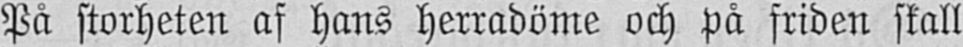På storheten af hans herradöme och på friden skall
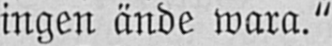ingen ände wara."
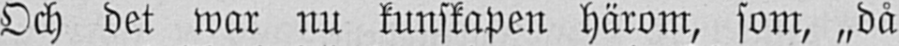Och det war nu kunskapen härom, som, „då
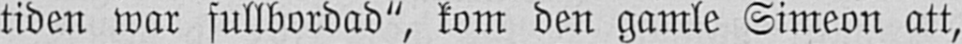tiden war fullbordad", kom den gamle Simeon att,
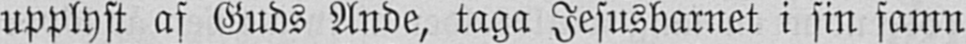upplyst af Guds Ande, taga Jesusbarnet i sin famn
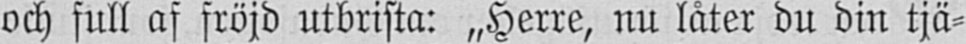och full af fröjd utbrista: „Herre, nu låter du din tjä-
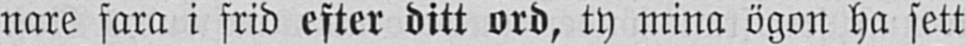nare fara i frid efter ditt ord, ty mina ögon ha sett
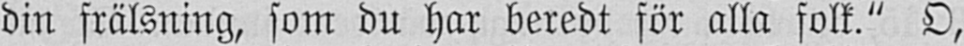din frälsning, som du har beredt för alla folk." O,
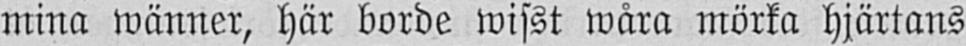mina wänner, här borde wisst wåra mörka hjärtans
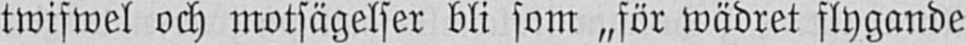twifwel och motsägelser bli som „för wädret flygande
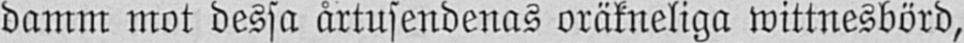damm mot dessa årtusendenas oräkneliga wittnesbörd,
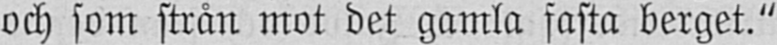och som strån mot det gamla fasta berget."
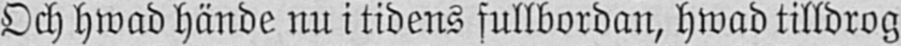Och hwad hände nu i tidens fullbordan, hwad tilldrog
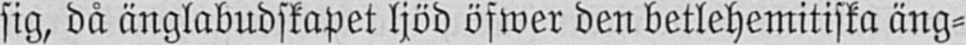sig, då änglabudskapet ljöd öfwer den betlehemitiska äng-
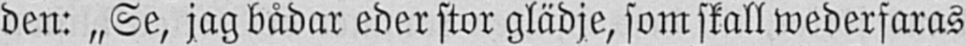den: „Se, jag bådar eder stor glädje, som skall wederfaras
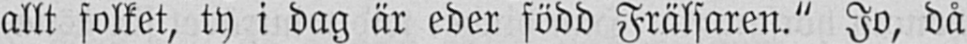allt folket, ty i dag är eder född Frälsaren." Jo, då
